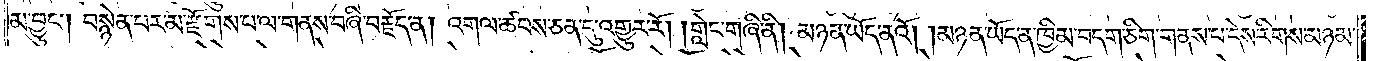མ་བྱུང༌། བསྙེན་པར་མ་རྫོགས་པ་ལ་གནས་བཞི་བརྗོད་ན། འགལ་ཚབས་ཅན་དུ་འགྱུར་རོ། །གླེང་གཞི་ནི། མཉན་ཡོད་ནའོ། །མཉན་ཡོད་ན་ཁྱིམ་བདག་ཅིག་གནས་པ་དེས་རིགས་མཉམ་
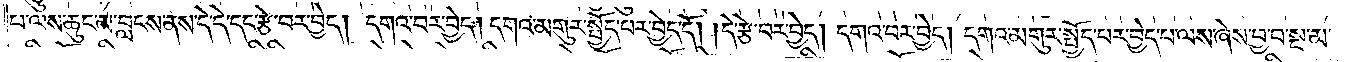པ་ལས་ཆུང་མ་བླངས་ནས་དེ་དེ་དང་རྩེ་བར་བྱེད། དགའ་བར་བྱེད། དགའ་མགུར་སྤྱོད་པར་བྱེད་དོ། །དེ་རྩེ་བར་བྱེད། དགའ་བར་བྱེད། དགའ་མགུར་སྤྱོད་པར་བྱེད་པ་ལས་ཞེས་བྱ་བ་སྔ་མ་
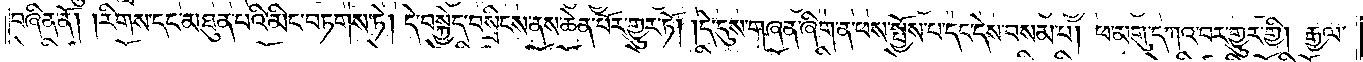བཞིན་ནོ། །རིགས་དང་མཐུན་པའི་མིང་བཏགས་ཏེ། དེ་བསྐྱེད་བསྲིངས་ནས་ཆེན་པོར་གྱུར་ཏོ། །དེ་དུས་གཞན་ཞིག་ན་ཕས་སྤྱོས་པ་དང་དེས་བསམ་པ། ཕ་མགུ་དཀའ་བར་གྱུར་གྱི། རྒྱལ་
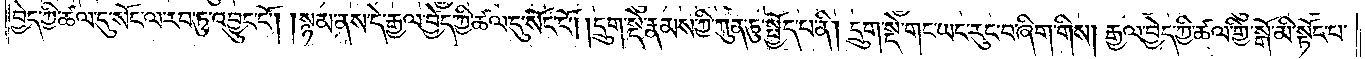བྱེད་ཀྱི་ཚལ་དུ་སོང་ལ་རབ་ཏུ་འབྱུང་ངོ༌། །སྙམ་ནས་དེ་རྒྱལ་བྱེད་ཀྱི་ཚལ་དུ་སོང་ངོ༌། །དྲུག་སྡེ་རྣམས་ཀྱི་ཀུན་ཏུ་སྤྱོད་པ་ནི། དྲུག་སྡེ་གང་ཡང་རུང་བ་ཞིག་གིས། རྒྱལ་བྱེད་ཀྱི་ཚལ་གྱི་སྒོ་མི་སྟོང་པ་
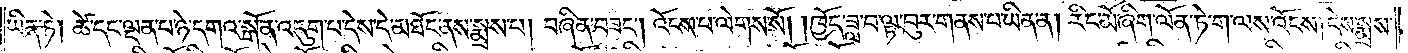ཡིན་ཏེ། ཚེ་དང་ལྡན་པ་ཉེ་དགའ་སྒོ་ན་འདུག་པ་དེས་དེ་མཐོང་ནས་སྨྲས་པ། བཞིན་བཟང༌། འོངས་པ་ལེགས་སོ། །ཁྱོད་ཟླ་བ་ལྟ་བུར་གནས་པ་ཡིན་ན། རིང་མོ་ཞིག་ལོན་ཏེ་ག་ལས་འོངས། དེས་སྨྲས་
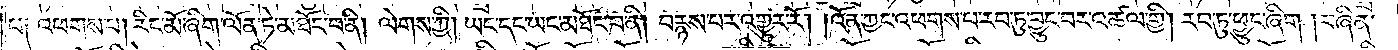པ༑ འཕགས་པ། རིང་མོ་ཞིག་ལོན་ཏེ་མཐོང་བ་ནི། ལེགས་ཀྱི། ཡང་དང་ཡང་མཐོང་བ་ནི། བརྙས་པར་འགྱུར་རོ། །འོན་ཀྱང་འཕགས་པ་རབ་ཏུ་བྱུང་བར་འཚལ་གྱི། རབ་ཏུ་ཕྱུང་ཞིག །བཞིན་
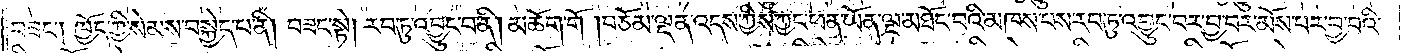བཟང༌། ཁྱོད་ཀྱི་སེམས་བསྐྱེད་པ་ནི། བཟང་སྟེ། རབ་ཏུ་འབྱུང་བ་ནི། མཆོག་གོ །བཅོམ་ལྡན་འདས་ཀྱིས་ཀྱང་ཕན་ཡོན་ལྔ་མཐོང་བའི་མཁས་པས་རབ་ཏུ་འབྱུང་བར་བྱ་བར་མོས་པར་བྱ་བའི་
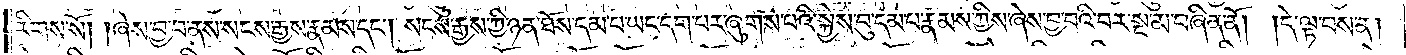རིགས་སོ། །ཞེས་བྱ་བ་ནས་སངས་རྒྱས་རྣམས་དང༌། སངས་རྒྱས་ཀྱི་ཉན་ཐོས་དམ་པ་ཡང་དག་པར་ཞུགས་པའི་སྐྱེས་བུ་དམ་པ་རྣམས་ཀྱིས་ཞེས་བྱ་བའི་བར་སྔ་མ་བཞིན་ནོ། །དེ་ལྟ་བས་ན།
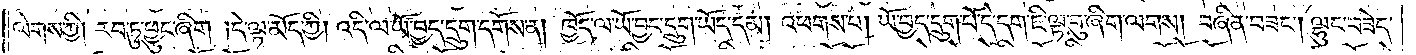ལེགས་ཀྱི། རབ་ཏུ་ཕྱུང་ཞིག །དེ་ལྟ་མོད་ཀྱི། འདི་ལ་ཡོ་བྱད་དྲུག་དགོས་ན། ཁྱོད་ལ་ཡོ་བྱད་དྲུག་ཡོད་དམ། འཕགས་པ། ཡོ་བྱད་དྲུག་པོ་དེ་དག་ཇི་ལྟ་བུ་ཞིག་ལགས། བཞིན་བཟང༌། ལྷུང་བཟེད་
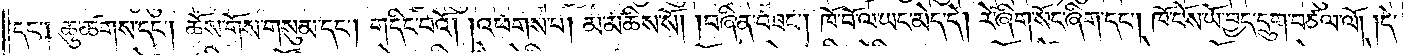དང༌། ཆུ་ཚགས་དང༌། ཆོས་གོས་གསུམ་དང༌། གདིང་བའོ། །འཕགས་པ། མ་མཆིས་སོ། །བཞིན་བཟང༌། ཁོ་བོ་ལ་ཡང་མེད་དེ། རེ་ཞིག་སོང་ཞིག་དང༌། ཁོ་བོས་ཡོ་བྱད་དྲུག་བཙལ་ལོ། །དེ་
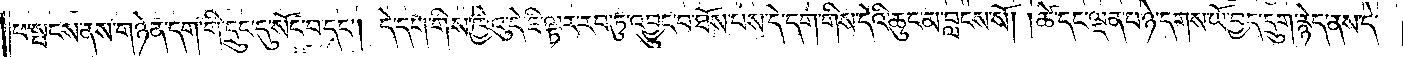ཕ་སྤངས་ནས་གཉེན་དག་གི་དྲུང་དུ་སོང་བ་དང༌། དེ་དག་གིས་ཁྱེའུ་དེ་ཇི་ལྟར་རབ་ཏུ་འབྱུང་བ་ཐོས་པས་དེ་དག་གིས་དེའི་ཆུང་མ་བླངས་སོ། །ཚེ་དང་ལྡན་པ་ཉེ་དགས་ཡོ་བྱད་དྲུག་རྙེད་ནས་དེ་
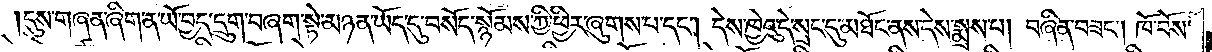དུས་གཞན་ཞིག་ན་ཡོ་བྱད་དྲུག་བཞག་སྟེ་མཉན་ཡོད་དུ་བསོད་སྙོམས་ཀྱི་ཕྱིར་ཞུགས་པ་དང༌། དེས་ཁྱེའུ་དེ་སྲང་དུ་མཐོང་ནས་དེས་སྨྲས་པ། བཞིན་བཟང༌། ཁོ་བོས་
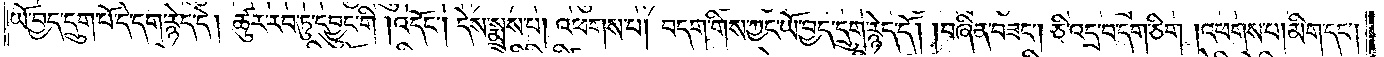ཡོ་བྱད་དྲུག་པོ་དེ་དག་རྙེད་དེ། ཚུར་རབ་ཏུ་དབྱུང་གི། འདོང༌། དེས་སྨྲས་པ། འཕགས་པ། བདག་གིས་ཀྱང་ཡོ་བྱད་དྲུག་རྙེད་དོ། །བཞིན་བཟང༌། ཅི་འདྲ་བ་དག་ཅིག །འཕགས་པ། མིག་དང༌།
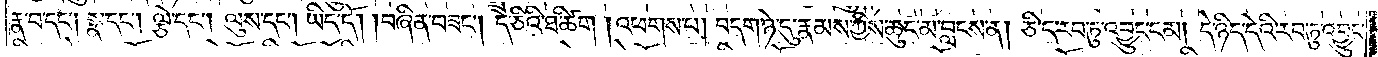རྣ་བ་དང༌། སྣ་དང༌། ལྕེ་དང༌། ལུས་དང༌། ཡིད་དོ། །བཞིན་བཟང༌། དེ་ཅིའི་ཐ་ཚིག །འཕགས་པ། བདག་ཉེ་དུ་རྣམས་ཀྱིས་ཆུང་མ་བླངས་ན། ཅི་ད་རབ་ཏུ་འབྱུང་ངམ། དེ་ཉིད་དེའི་རབ་ཏུ་འབྱུང་
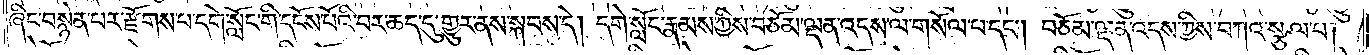ཞིང་བསྙེན་པར་རྫོགས་པ་དགེ་སློང་གི་དངོས་པོའི་བར་ཆད་དུ་གྱུར་ནས་སྐབས་དེ། དགེ་སློང་རྣམས་ཀྱིས་བཅོམ་ལྡན་འདས་ལ་གསོལ་པ་དང༌། བཅོམ་ལྡན་འདས་ཀྱིས་བཀའ་སྩལ་པ།
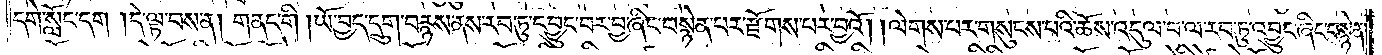དགེ་སློང་དག །དེ་ལྟ་བས་ན། གནང་གི། ཡོ་བྱད་དྲུག་བརྙས་ནས་རབ་ཏུ་དབྱུང་བར་བྱ་ཞིང་བསྙེན་པར་རྫོགས་པར་བྱའོ། །ལེགས་པར་གསུངས་པའི་ཆོས་འདུལ་བ་ལ་རབ་ཏུ་འབྱུང་ཞིང་བསྙེན་
